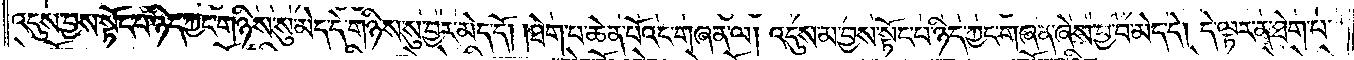འདུས་བྱས་སྟོང་པ་ཉིད་ཀྱང་གཉིས་སུ་མེད་དེ་གཉིས་སུ་བྱར་མེད་དོ། །ཐེག་པ་ཆེན་པོའང་གཞན་ལ། འདུས་མ་བྱས་སྟོང་པ་ཉིད་ཀྱང་གཞན་ཞེས་བྱ་བ་མེད་དེ། དེ་ལྟར་ན་ཐེག་པ་
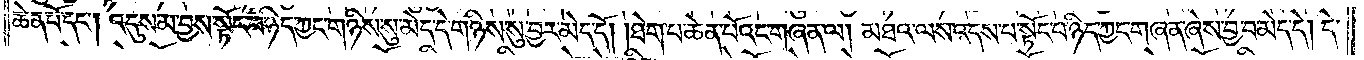ཆེན་པོ་དང༌། འདུས་མ་བྱས་སྟོང་པ་ཉིད་ཀྱང་གཉིས་སུ་མེད་དེ་གཉིས་སུ་བྱར་མེད་དོ། །ཐེག་པ་ཆེན་པོའང་གཞན་ལ། མཐའ་ལས་འདས་པ་སྟོང་པ་ཉིད་ཀྱང་གཞན་ཞེས་བྱ་བ་མེད་དེ། དེ་
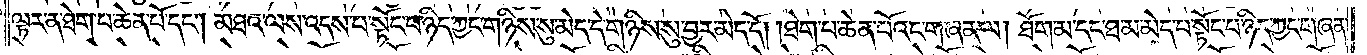ལྟར་ན་ཐེག་པ་ཆེན་པོ་དང༌། མཐའ་ལས་འདས་པ་སྟོང་པ་ཉིད་ཀྱང་གཉིས་སུ་མེད་དེ་གཉིས་སུ་བྱར་མེད་དོ། །ཐེག་པ་ཆེན་པོའང་གཞན་ལ། ཐོག་མ་དང་ཐ་མ་མེད་པ་སྟོང་པ་ཉིད་ཀྱང་གཞན་
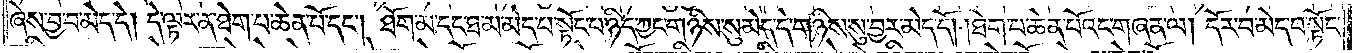ཞེས་བྱ་བ་མེད་དེ། དེ་ལྟར་ན་ཐེག་པ་ཆེན་པོ་དང༌། ཐོག་མ་དང་ཐ་མ་མེད་པ་སྟོང་པ་ཉིད་ཀྱང་གཉིས་སུ་མེད་དེ་གཉིས་སུ་བྱར་མེད་དོ། །ཐེག་པ་ཆེན་པོའང་གཞན་ལ། དོར་བ་མེད་པ་སྟོང་
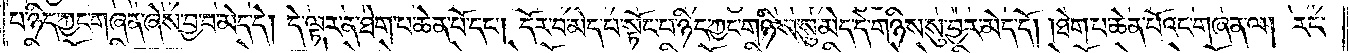པ་ཉིད་ཀྱང་གཞན་ཞེས་བྱ་བ་མེད་དེ། དེ་ལྟར་ན་ཐེག་པ་ཆེན་པོ་དང༌། དོར་བ་མེད་པ་སྟོང་པ་ཉིད་ཀྱང་གཉིས་སུ་མེད་དེ་གཉིས་སུ་བྱར་མེད་དོ། །ཐེག་པ་ཆེན་པོའང་གཞན་ལ། རང་
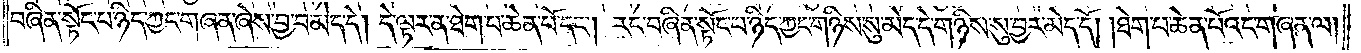བཞིན་སྟོང་པ་ཉིད་ཀྱང་གཞན་ཞེས་བྱ་བ་མེད་དེ། དེ་ལྟར་ན་ཐེག་པ་ཆེན་པོ་དང༌། རང་བཞིན་སྟོང་པ་ཉིད་ཀྱང་གཉིས་སུ་མེད་དེ་གཉིས་སུ་བྱར་མེད་དོ། །ཐེག་པ་ཆེན་པོའང་གཞན་ལ།
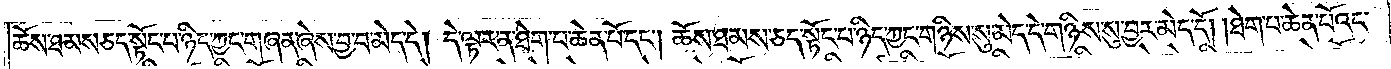ཆོས་ཐམས་ཅད་སྟོང་པ་ཉིད་ཀྱང་གཞན་ཞེས་བྱ་བ་མེད་དེ། དེ་ལྟར་ན་ཐེག་པ་ཆེན་པོ་དང༌། ཆོས་ཐམས་ཅད་སྟོང་པ་ཉིད་ཀྱང་གཉིས་སུ་མེད་དེ་གཉིས་སུ་བྱར་མེད་དོ། །ཐེག་པ་ཆེན་པོའང་
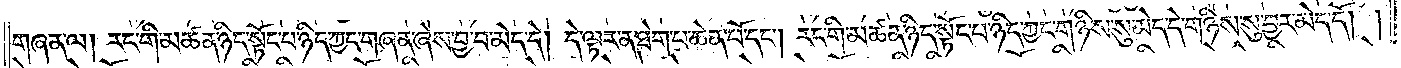གཞན་ལ། རང་གི་མཚན་ཉིད་སྟོང་པ་ཉིད་ཀྱང་གཞན་ཞེས་བྱ་བ་མེད་དེ། དེ་ལྟར་ན་ཐེག་པ་ཆེན་པོ་དང༌། རང་གི་མཚན་ཉིད་སྟོང་པ་ཉིད་ཀྱང་གཉིས་སུ་མེད་དེ་གཉིས་སུ་བྱར་མེད་དོ། །
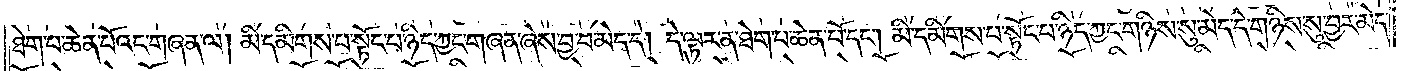ཐེག་པ་ཆེན་པོའང་གཞན་ལ། མི་དམིགས་པ་སྟོང་པ་ཉིད་ཀྱང་གཞན་ཞེས་བྱ་བ་མེད་དེ། དེ་ལྟར་ན་ཐེག་པ་ཆེན་པོ་དང༌། མི་དམིགས་པ་སྟོང་པ་ཉིད་ཀྱང་གཉིས་སུ་མེད་དེ་གཉིས་སུ་བྱར་མེད་
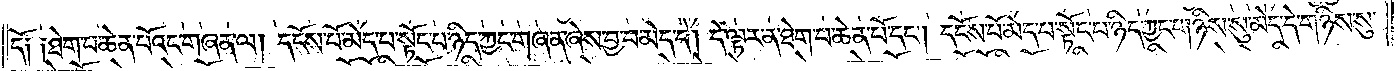དོ། ཐེག་པ་ཆེན་པོའང་གཞན་ལ། དངོས་པོ་མེད་པ་སྟོང་པ་ཉིད་ཀྱང་གཞན་ཞེས་བྱ་བ་མེད་དེ། དེ་ལྟར་ན་ཐེག་པ་ཆེན་པོ་དང༌། དངོས་པོ་མེད་པ་སྟོང་པ་ཉིད་ཀྱང་གཉིས་སུ་མེད་དེ་གཉིས་སུ་
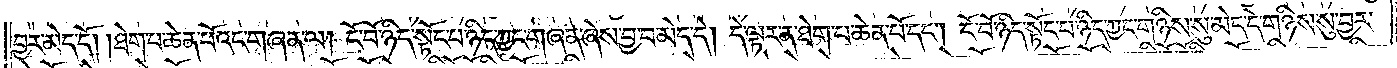བྱར་མེད་དོ། །ཐེག་པ་ཆེན་པོའང་གཞན་ལ། ངོ་བོ་ཉིད་སྟོང་པ་ཉིད་ཀྱང་གཞན་ཞེས་བྱ་བ་མེད་དེ། དེ་ལྟར་ན་ཐེག་པ་ཆེན་པོ་དང༌། ངོ་བོ་ཉིད་སྟོང་པ་ཉིད་ཀྱང་གཉིས་སུ་མེད་དེ་གཉིས་སུ་བྱར་
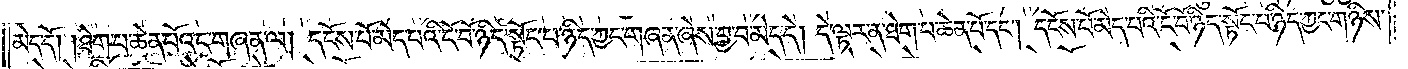མེད་དོ། །ཐེག་པ་ཆེན་པོའང་གཞན་ལ། དངོས་པོ་མེད་པའི་ངོ་བོ་ཉིད་སྟོང་པ་ཉིད་ཀྱང་གཞན་ཞེས་བྱ་བ་མེད་དེ། དེ་ལྟར་ན་ཐེག་པ་ཆེན་པོ་དང༌། དངོས་པོ་མེད་པའི་ངོ་བོ་ཉིད་སྟོང་པ་ཉིད་ཀྱང་གཉིས་
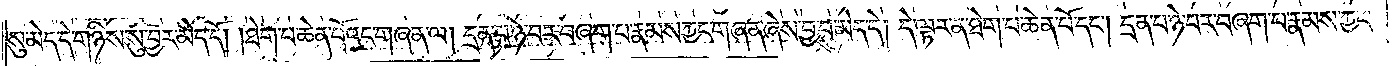སུ་མེད་དེ་གཉིས་སུ་བྱར་མེད་དོ། །ཐེག་པ་ཆེན་པོའང་གཞན་ལ། དྲན་པ་ཉེ་བར་བཞག་པ་རྣམས་ཀྱང་གཞན་ཞེས་བྱ་བ་མེད་དེ། དེ་ལྟར་ན་ཐེག་པ་ཆེན་པོ་དང༌། དྲན་པ་ཉེ་བར་བཞག་པ་རྣམས་ཀྱང་
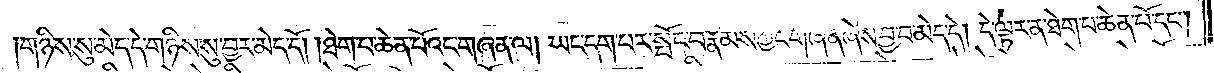གཉིས་སུ་མེད་དེ་གཉིས་སུ་བྱར་མེད་དོ། །ཐེག་པ་ཆེན་པོའང་གཞན་ལ། ཡང་དག་པར་སྤོང་བ་རྣམས་ཀྱང་གཞན་ཞེས་བྱ་བ་མེད་དེ། དེ་ལྟར་ན་ཐེག་པ་ཆེན་པོ་དང༌།
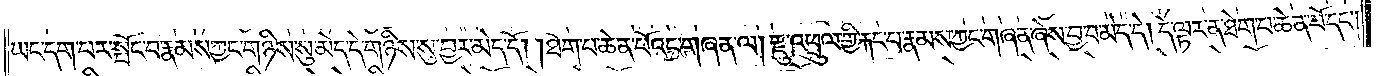ཡང་དག་པར་སྤོང་བ་རྣམས་ཀྱང་གཉིས་སུ་མེད་དེ་གཉིས་སུ་བྱར་མེད་དོ། །ཐེག་པ་ཆེན་པོའང་གཞན་ལ། རྫུ་འཕྲུལ་གྱི་རྐང་པ་རྣམས་ཀྱང་གཞན་ཞེས་བྱ་བ་མེད་དེ། དེ་ལྟར་ན་ཐེག་པ་ཆེན་པོ་དང༌།
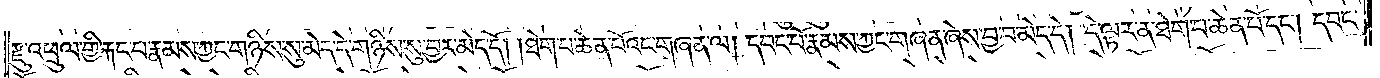རྫུ་འཕྲུལ་གྱི་རྐང་པ་རྣམས་ཀྱང་གཉིས་སུ་མེད་དེ་གཉིས་སུ་བྱར་མེད་དོ། །ཐེག་པ་ཆེན་པོའང་གཞན་ལ། དབང་པོ་རྣམས་ཀྱང་གཞན་ཞེས་བྱ་བ་མེད་དེ། དེ་ལྟར་ན་ཐེག་པ་ཆེན་པོ་དང༌། དབང་
